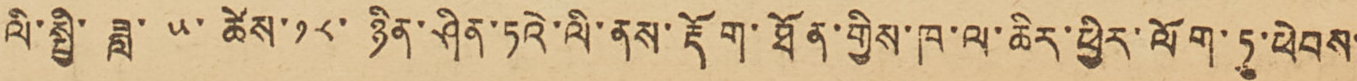ལི་སྤྱི་ཟླ་ ༥ ཚེས་ ༡༨ ཉིན་ཤིན་ཏའེ་ལི་ནས་རྡོག་ཐོན་གྱིས་ཁ་ལ་ཆིར་ཕྱིར་ལོག་ཏུ་ཕེབས་་
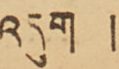འདུག།།
